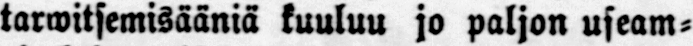tarwitsemisääniä kuuluu jo paljon useam-
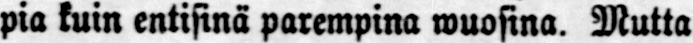pia kuin entisinä parempina wuosina. Mutta
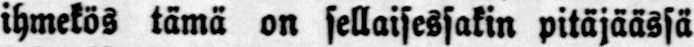ihmekös tämä on sellaisessakin pitäjäässä
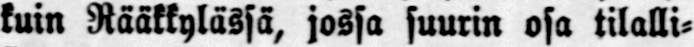kuin Rääkkylässä, jossa suurin osa tilalli-
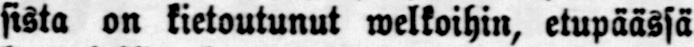sista on kietoutunut welkoihin, etupäässä
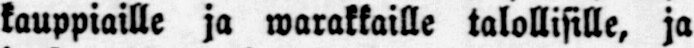kauppiaille ja warakkaille talollisille, ja
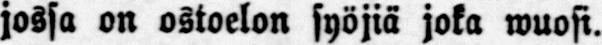jossa on ostoelon syöjiä joka wuosi.
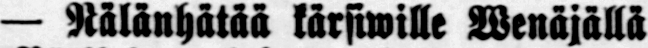— Nälänhätää kärsiwille Wenäjällä
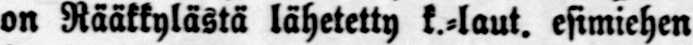on Rääkkylästä lähetetty k.-laut. esimiehen
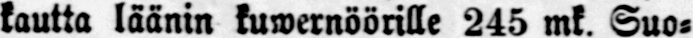kautta läänin kuwernöörille 245 mk. Suo-
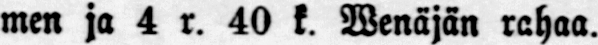men ja 4 r. 40 k. Wenäjän rahaa.
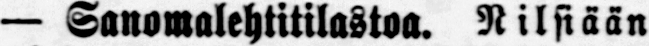— Sanomalehtitilastoa. Nilsiään
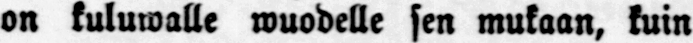on kuluwalle wuodelle sen mukaan, kuin
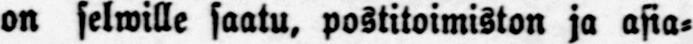on selwille saatu, postitoimiston ja asia-
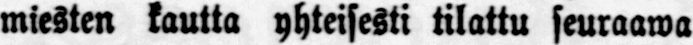miesten kautta yhteisesti tilattu seuraawa
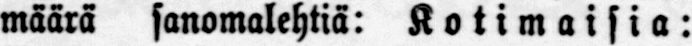määrä sanomalehtiä: Kotimaisia:
